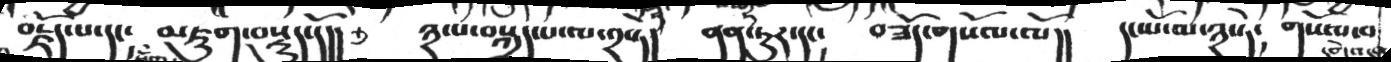བརྗོད་པ་དང༴  མཇུག་བསྡུད་དོ།།    ༣་པ་བསྐྲད་པ་ལ་༢སྟེ།  ནན་ཏུར་དང༴   བཟོད་གསོལ་ལོ།།  དང་པོ་ལ་༣་ཏེ༴  གསོལ་བ
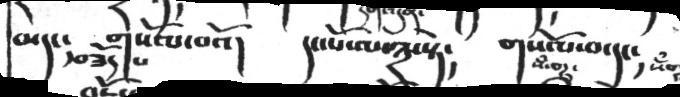མེད་༴  བཟོད་པ  གསོལ་བའོ།  དང་པོ་ལ་༣་སྟེ༴   གསོལ་བ་དང༴
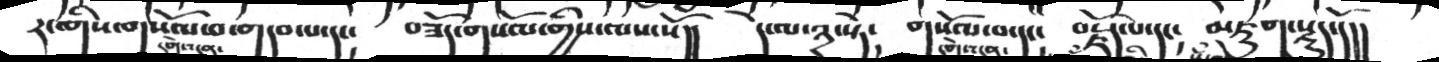རང་གིས་གསོལ་བ་གདབ་དང༴   བཟོད་གསོལ་གཡིས་ལས་སོ།།  དེ་ལ་༣་སྟེ༴   གསོལ་བ་དང༴   བརྗོད་པ་དང༴   མཇུག་སྡུད་།།
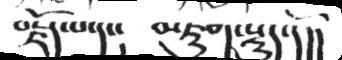བརྗོད་པ་དང།  མཇུག་སྡུད་དོ།།
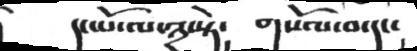དང་པོ་ལ་༣་སྟེ།  གསོལ་བ་དང།
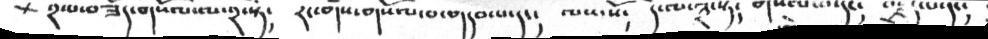+༢་པ་་བཟོད་གསོལ་ལ་༢་སྟེ༴   རང་གིས་གསོལ་བ་གདབ་པ་དང༴   ལས་སོ༴   དེ་ལ་༣་སྟ༴   གསོལ་བ་དང༴  བརྗོད་པ་དང༴
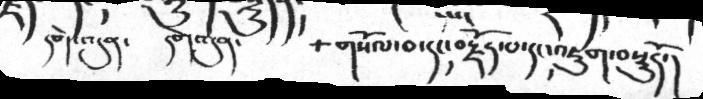དགེ་འདུན་  དགེ་འདུན་   གསོལ་བ་དང་བརྗོད་པ་དང་འཇུག་བསྡུདོ་།
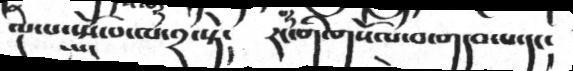ལྔ་པ་སྤོ་བ་ལ་༢་སྟེ།    རང་གི་གསོལ་བ་གདབ་པ་དང།
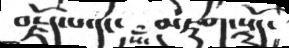བརྗོད་པ་དང་    མཇུག་སྡུད
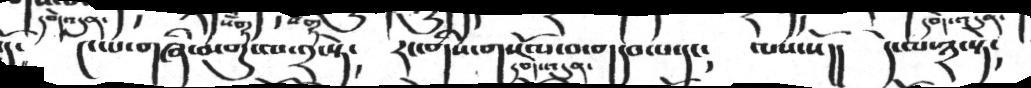དགེ་འདུན་  ༤་པ་གཞི་གཞི་མགུ་ལ་༢་སྟེ།   རང་གིས་གསོལ་བ་གདབ་པ་དང།  ལས་སོ།།   དེ་ལ་༣་སྟེ།
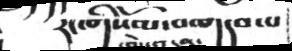རང་གིསོམ་བཆད་དབ་པ་
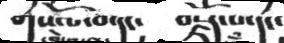གསོལ་བ་དང༴  བརྗོད་པ་དང༴
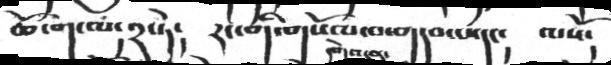ཆོ་ག་ལ༴༢་ཏེ༴  རང་གི་གསོལ་བ་གདབ་པ་དང༴  ལསོ༴
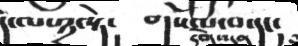དེ་ལ་༣་སྟེ༴  གསོལ་བ་དང༴
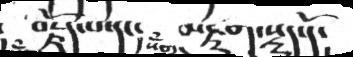བརྗོད་པ་དང༴  མརྟུག་སྟུད་དོ་
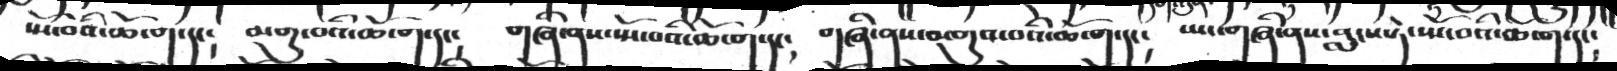སོས་བའི་ཆོ་ག་དང།  མགུ་བའི་ཆོ་ག་དང།  གཞི་ནས་སྤོ་བའི་ཆོ་ག་དང།  གཞི་ནས་མགུས་བའི་ཆོ་ག་དང།  ཡ་གཞི་ནས་བླངས་ཏེ་སྤོ་བའི་ཆོ་ག་དང།
